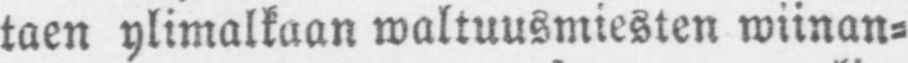taen ylimalkaan waltuusmiesten wiinan-
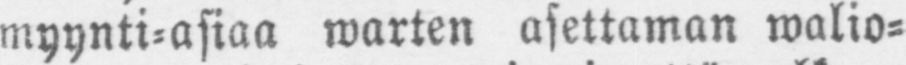myynti-asiaa warten asettaman walio-
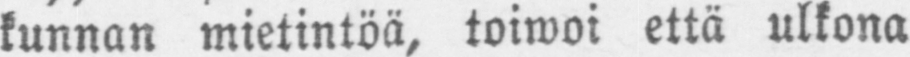kunnan mietintöä, toiwoi että ulkona
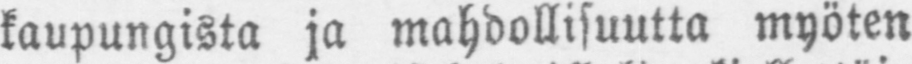kaupungista ja mahdollisuutta myöten
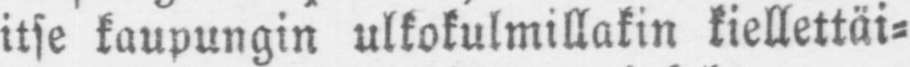itse kaupungin ulkokulmillakin kiellettäi-
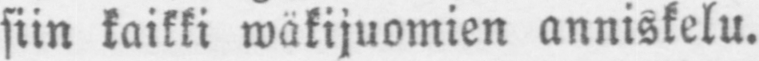siin kaikki wäkijuomien anniskelu.
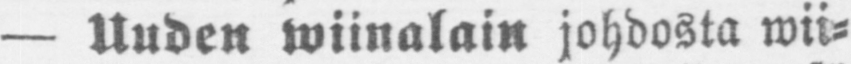— Uuden wiinalain johdosta wii-
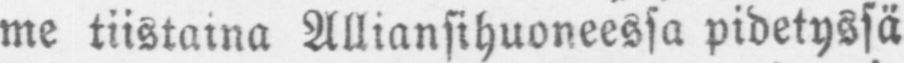me tiistaina Alliansihuoneessa pidetyssä
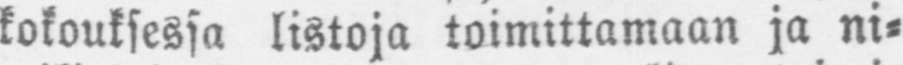kokouksessa listoja toimittamaan ja ni-
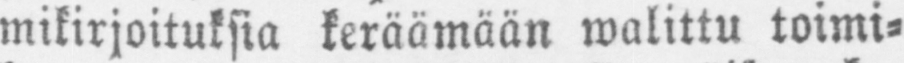mikirjoituksia keräämään walittu toimi-
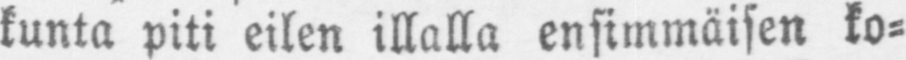kunta piti eilen illalla ensimmäisen ko-
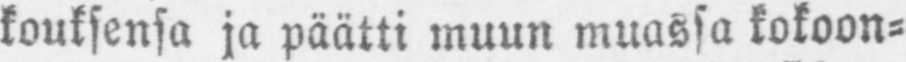kouksensa ja päätti muun muassa kokoon-
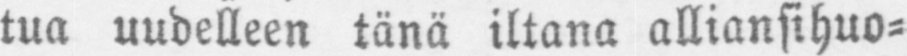tua uudelleen tänä iltana alliansihuo-
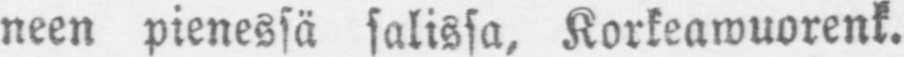neen pienessä salissa, Korkeawuorenk.
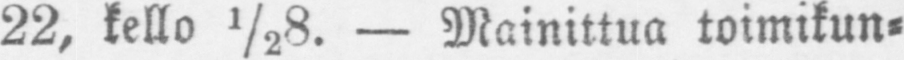22, kello ½8. — Mainittua toimikun-
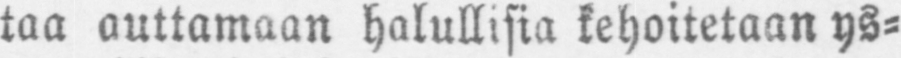taa auttamaan halullisia kehoitetaan ys-
